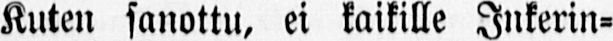Kuten sanottu, ei kaikille Inkerin-
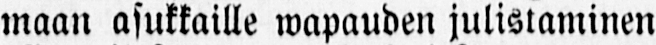maan asukkaille wapauden julistaminen
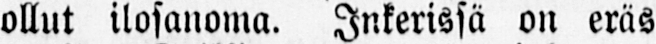ollut ilosanoma. Inkerissä on eräs
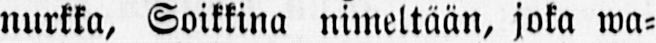nurkka, Soikkina nimeltään, joka wa-
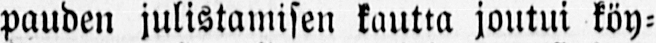pauden julistamisen kautta joutui köy-
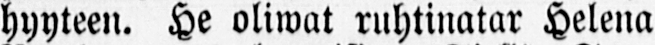hyyteen. He ottiwat ruhtinatar Helena
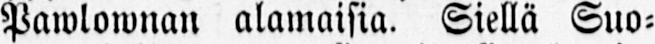Pawlownan alamaisia. Siellä Suo-
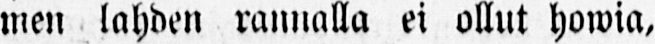men lahden rannalla ei ollut howia,
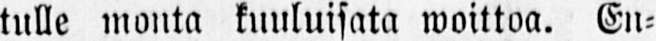tulle monta kuuluisilta woittoa. En-
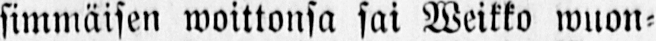simmäisen woittonsa sai Weikko wuon-
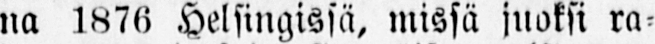na 1876 Helsingissä, missä juoksi ra-
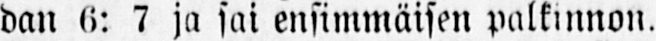dan 6: 7 ja sai ensimmäisen palkinnon.
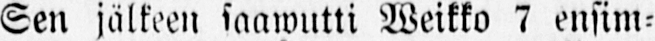Sen jälkeen sawutti Weikko 7 ensim-
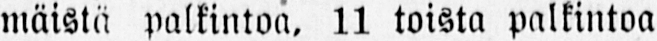mäistä palkintoa, 11 toista palkintoa
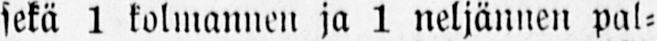sekä 1 kolmannen ja 1 neljännen pal-
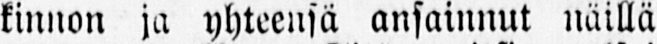kinnon ja yhteensä ansainnut näillä
